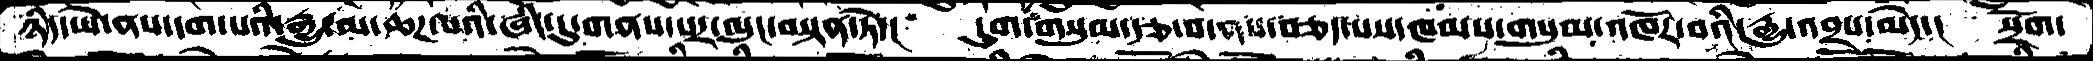ཉིད་ཡེ་ནས་དག་པའི་རྒྱུ་མ་ཆཌ་པའི་ཞིང་དུ་གནས་པར་ལུང་བསྟན་ཏེ་།  དུག་གསུམ་རྩ་བ་ནས་བཅད་པས་ཁམས་གསུམ་འཁོར་བའི་རྒྱུ་འབྲས་མེད་།  སྲོག་
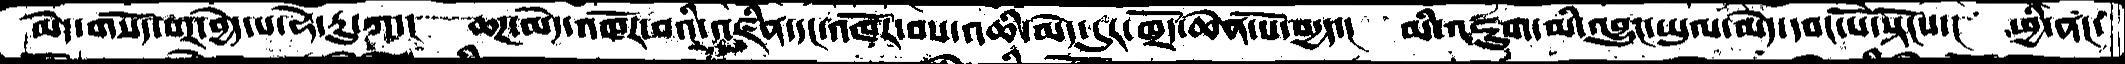མེད་གསོད་པར་བྱེད་པ་ཧེ་རུ་ཀ་།  ཆཌ་མེད་འཁོར་བའི་འཛིན་དང་འཁོར་བས་འཆི་མེད་དུར་ཁྲོད་ཆེན་པོ་བདྱད་།  མི་འཇུག་མི་འབྱུང་ཡུལ་མེད་དབང་པོ་སྟོངས་།  ཕྱི་ནང་
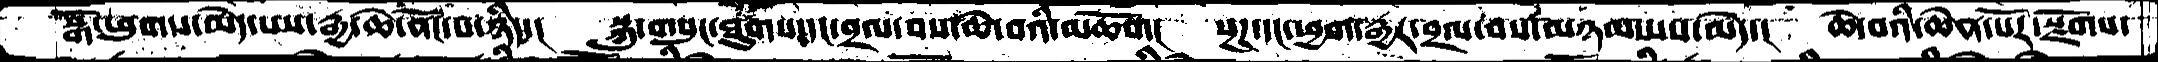སྒོ་ཕུགས་མེད་པས་རྒྱ་ཆེ་ནོང་པ་ཉིད་།  སྐུ་གསུང་ཐུགས་དང་བྲལ་བས་ཆེ་བའི་མཆོག་།  སྔཌ་དང་ཕྱག་རྒྱར་བྲལ་བས་མཉམ་པས་མེད་།  ཆེ་བའི་ཆེན་པོར་སྫོགས་
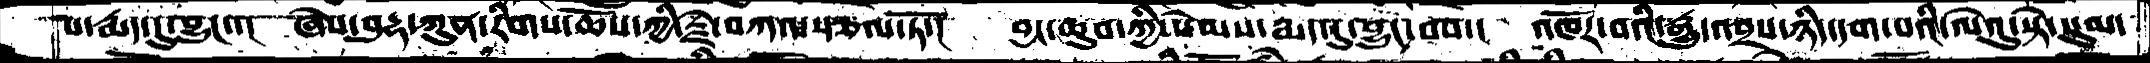པ་རྨད་དུ་བྱུང་་།  ཞེས་བུདྷ་ཀུན་རིགས་ཆོས་ཀྱི་རྗེ་བཀའ་སྩལ་ཏོ་།  བྱང་ཆུབ་ཀྱི་སེམས་རྨད་དུ་བྱུང་བས་།  འཁོར་བའི་རྒྱུ་འབྲས་ཉིད་དག་པའི་ལེའུ་སྟེ་སུམ་
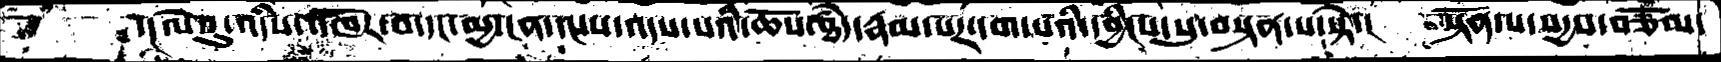་།ལེའུ་འདིས་འཁོར་བ་དང་མྱ་ངན་ལས་འདས་པའི་ཆོས་ཐཾད་རྣམ་པར་དག་པའི་དབྱིངས་སུ་བསྟན་པ་སྟེ་།  སྟོན་པ་སདྱས་བཅོམ་
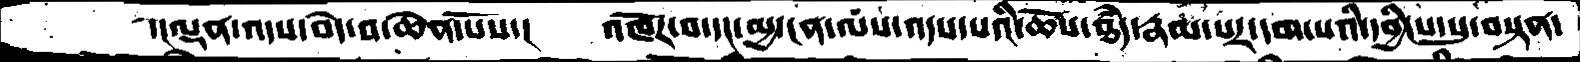་།ལྡྱན་འདས་བདེ་བ་ཆེན་པོས་།  འཁོར་བ་དང་མྱ་ངན་ལས་འདས་པའི་ཆོས་ཐཾད་རྣམ་པར་དག་པའི་དབྱིངས་སུ་བསྟན་
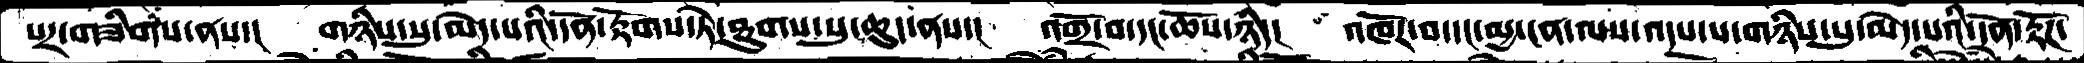པར་གཟིགས་ནས་།  གཉིས་སུ་མེད་པའི་དོན་རྟོགས་ཏེ་ཐུགས་སུ་ཆུད་ནས་།  འགྲོ་བ་དང་ཆོས་ཉིད།  འཁོར་བ་དང་མྱ་ངན་ལས་འདས་པ་གཉིས་སུ་མེད་པའི་དོན་རྟོཌ་
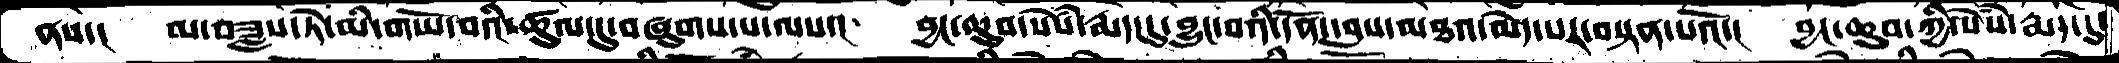ནས་། མ་བཟླས་ཏེ་མི་གཡོ་བའི་ཚུལ་དུ་བཞུགས་པ་ལས་།  བྱང་ཆུབ་སེསཾ་་རྨད་དུ་བྱུང་བའི་དོན་དབུས་མཐའ་མེད་པར་བསྟན་པའོ་།  བྱང་ཆུབ་ཀྱི་སེསཾ་རྨད་དུ་
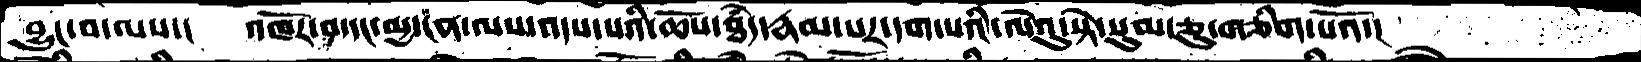བྱུང་བ་ལས་།  འཁོར་བ་དང་མྱ་ངན་ལས་འདས་པའི་ཆོས་ཐཾད་རྣམ་པར་དག་པའི་ལེའུ་སྟེ་སུམ་ཅུ་གཅིག་པའོ་།
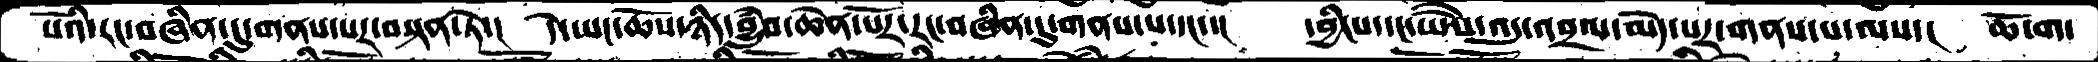པོའི་རང་བཞིན་དུ་གནས་པར་བསྟན་ཏེ་།  དེ་ཡང་ཆོས་ཉིད་བྱུཾབ་ཆེན་པོར་རང་བཞིན་དུ་གནས་པ་དང་།  དབྱིངས་དང་ཡཻས་འདུ་འབྲལ་མེད་པར་གནས་པ་ལས་།  ཆོ་ག་
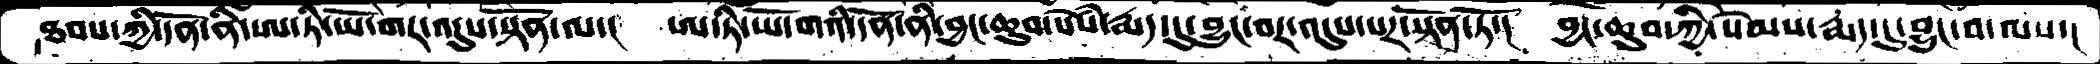ཐབས་ཀྱི་དོན་ནི་ཨ་ཏི་ཡོ་གར་འདུས་སྟོན་ལ་།  ཨ་ཏི་ཡོ་གའི་དོན་ནི་བྱང་ཆུབ་སེསཾ་རྨད་དུ་བྱུང་བར་འདུས་པར་སྟོན་ཏོ་།  བྱང་ཆུབ་ཀྱི་སེམས་རྨད་དུ་བྱུང་བ་ལས་།
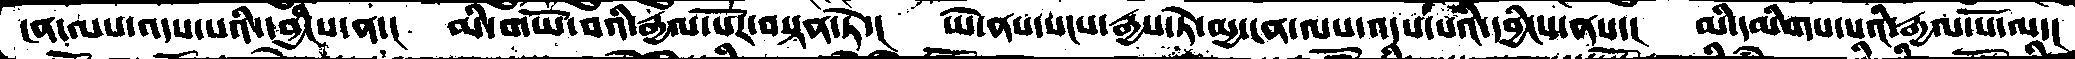ངན་ལས་འདས་པའི་དབྱིངས་ན་།  མི་གཡོ་བའི་རྒྱལ་པོར་བསྟན་ཏེ་།  ཡེ་ནས་སངས་རྒྱས་ཏེ་མྱ་ངན་ལས་འདས་པའི་དབྱིངས་ནས་།  མི་དམིགས་པའི་རྒྱལ་པོ་ལ་།
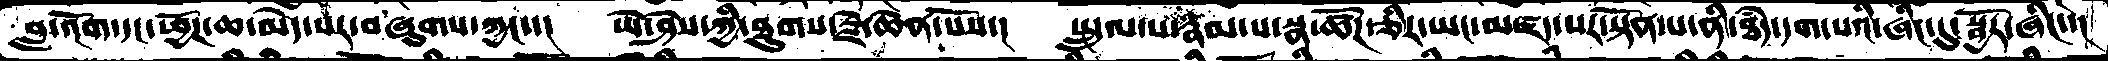བླ་འོག་དང་ཕྱོཌ་ཆ་མེད་པར་བཞུགས་ཀྱང་།  ཡེ་ཤེས་ཀྱི་ཐུགས་རྗེ་ཆེན་པོས་།  སྤྲུལ་པ་རྣམ་པ་སྣ་ཚོཌ་ཅིར་ཡང་མཛད་པར་སྟོན་པ་ནི་ཐཾད་དག་པའི་ཞིང་དུ་སྦྱོར་ཞིང་་།
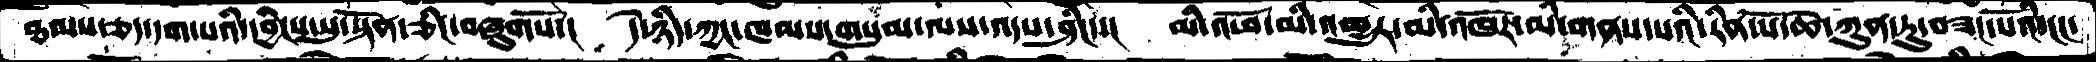ཐམས་ཅད་དག་པའི་དབྱིངས་སུ་སྟོན་ཅིང་བཞུགསོ་།  དེ་ཉིད་ཀྱང་ཁམས་གསུམ་ལས་འདས་ཤིང་་།  མི་འཕོ་མི་འགྱུར་མི་འཁོར་མི་གནས་པའི་རིན་པོ་ཆེ་ཀུན་ཏུ་བཟང་པོའི་ངང་
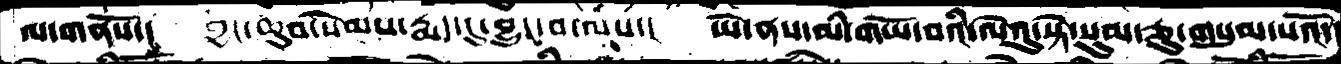ལ་གནསོ་།  བྱང་ཆུབ་སེམས་རྨད་དུ་བྱུང་བ་ལས་།  ཡེ་ནས་མི་གཡོ་བའི་ལེའུ་སྟེ་སུམ་ཅུ་གསུམ་པའོ་།
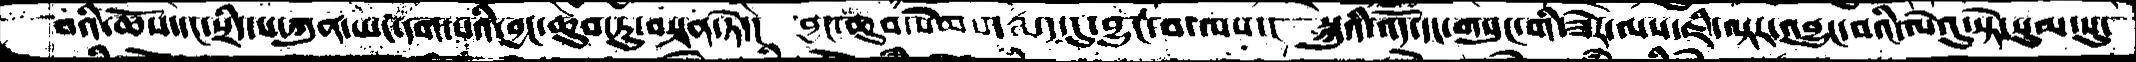བའི་ཆོས་དང་སྲིད་པ་ཀུན་ཡང་དག་པའི་བྱང་ཆུབ་ཏུ་བསྟན་ཏེ་།  བྱང་ཆུབ་སེམས་རྨད་དུ་བྱུང་བ་ལས་།  སྐུའི་འོད་དང་གསུང་གི་ཟེེར་ལས་ཇི་ལྟར་འབྱུང་བའི་ལེའུ་སྟེ་སུམ་སུ་
